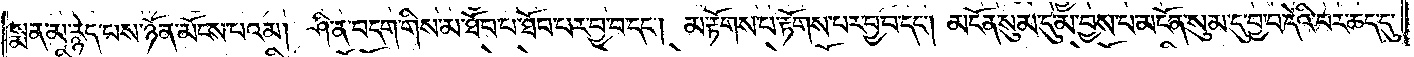སྨན་མ་རྙེད་པས་ཉོན་མོངས་པའམ། ཤི་ན་བདག་གིས་མ་ཐོབ་པ་ཐོབ་པར་བྱ་བ་དང༌། མ་རྟོགས་པ་རྟོགས་པར་བྱ་བ་དང༌། མངོན་སུམ་དུ་མ་བྱས་པ་མངོན་སུམ་དུ་བྱ་བ་དེའི་བར་ཆད་དུ་
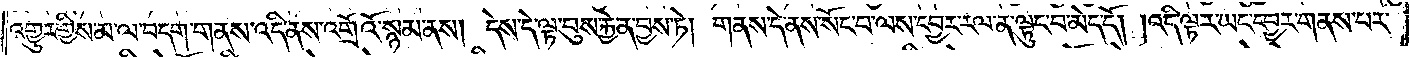འགྱུར་གྱིས་མ་ལ་བདག་གནས་འདི་ནས་འགྲོའོ་སྙམ་ནས། དེས་དེ་ལྟ་བུས་རྐྱེན་བྱས་ཏེ། གནས་དེ་ནས་སོང་བ་ལས་དབྱར་རལ་ན་ལྟུང་བ་མེད་དོ། །འདི་ལྟར་ཡང་དབྱར་གནས་པར་
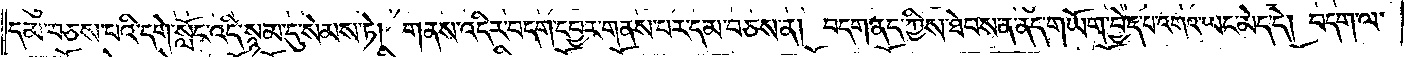དམ་བཅས་པའི་དགེ་སློང་འདི་སྙམ་དུ་སེམས་ཏེ། གནས་འདིར་བདག་དབྱར་གནས་པར་དམ་བཅས་ན། བདག་ནད་ཀྱིས་ཐེབས་ན་ནད་གཡོག་བྱེད་བ་འགའ་ཡང་མེད་དེ། བདག་ལ་
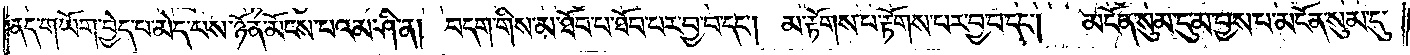ནད་གཡོག་བྱེད་པ་མེད་པས་ཉོན་མོངས་པའམ་ཤི་ན། བདག་གིས་མ་ཐོབ་པ་ཐོབ་པར་བྱ་བ་དང༌། མ་རྟོགས་པ་རྟོགས་པར་བྱ་བ་དང༌།   མངོན་སུམ་དུ་མ་བྱས་པ་མངོན་སུམ་དུ་
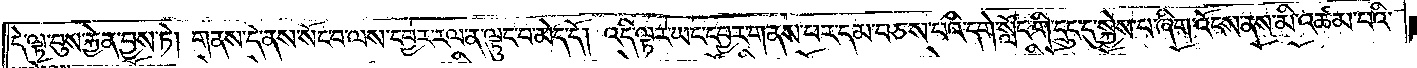དེ་ལྟ་བུས་རྐྱེན་བྱས་ཏེ། གནས་དེ་ནས་སོང་བ་ལས་དབྱར་རལ་ན་ལྟུང་བ་མེད་དོ། འདི་ལྟར་ཡང་དབྱར་གནས་པར་དམ་བཅས་པའི་དགེ་སློང་གི་དྲུང་དུ་སྐྱེས་པ་ཞིག་འོངས་ནས་མི་འཚམ་པའི་
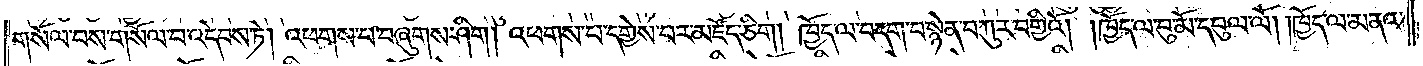གསོལ་བས་གསོལ་བ་འདེབས་ཏེ། འཕགས་པ་བཞུགས་ཤིག། འཕགས་པ་དགྱེས་པར་མཛོད་ཅིག། ཁྱོད་ལ་བདག་བསྙེན་བཀུར་བགྱིའོ། །ཁྱོད་ལ་བུ་མོ་དབུལ་ལོ། །ཁྱོད་ལ་མནའ་
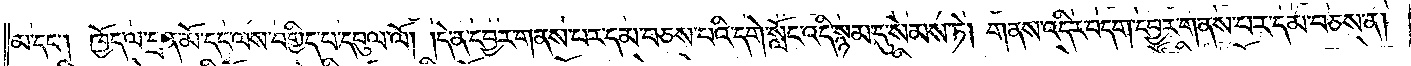མ་དང༌། ཁྱོད་ལ་བྲན་མོ་དང་ལས་བགྱིད་པ་དབུལ་ལོ། །དེ་ན་དབྱར་གནས་པར་དམ་བཅས་པའི་དགེ་སློང་འདི་སྙམ་དུ་སེམས་ཏེ། གནས་འདིར་བདག་དབྱར་གནས་པར་དམ་བཅས་ན།
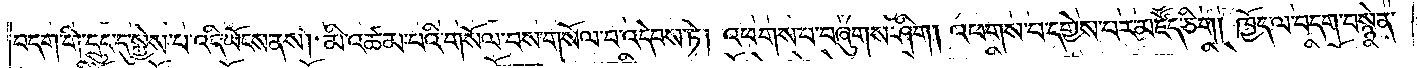བདག་གི་དྲུང་དུ་སྐྱེས་པ་འདི་ཡོངས་ནས། མི་འཚམ་པའི་གསོལ་བས་གསོལ་བ་འདེབས་ཏེ། འཕགས་པ་བཞུགས་ཤིག། འཕགས་པ་དགྱེས་པར་མཛོད་ཅིག། ཁྱོད་ལ་བདག་བསྙེན་
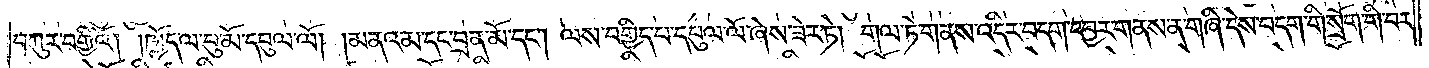བཀུར་བགྱིའོ། །ཁྱོད་ལ་བུ་མོ་དབུལ་ལོ། །མནའ་མ་དང་བྲན་མོ་དང༌། ལས་བགྱིད་པ་དབུལ་ལོ་ཞེས་ཟེར་ཏེ། གལ་ཏེ་གནས་འདིར་བདག་དབྱར་གནས་ན་གཞི་དེས་བདག་གི་སྲོག་གི་བར་
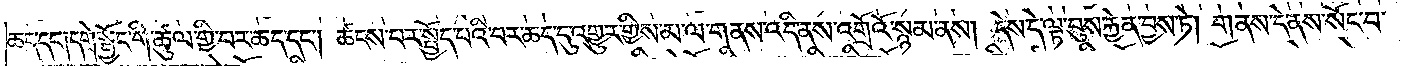ཆད་དང༌། དགེ་སྦྱོང་གི་ཚུལ་གྱི་བར་ཆད་དང༌། ཚངས་པར་སྤྱོད་པའི་བར་ཆད་དུ་འགྱུར་གྱིས་མ་ལ་གནས་འདི་ནས་འགྲོའོ་སྙམ་ནས། དེས་དེ་ལྟ་བུས་རྐྱེན་བྱས་ཏེ། གནས་དེ་ནས་སོང་བ་
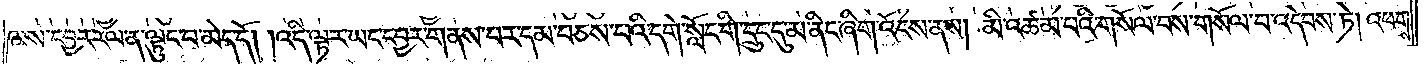ལས་དབྱར་རལ་ན་ལྟུང་བ་མེད་དོ། །འདི་ལྟར་ཡང་དབྱར་གནས་པར་དམ་བཅས་པའི་དགེ་སློང་གི་དྲུང་དུ་མ་ནིང་ཞིག་འོངས་ནས། མི་འཚམ་བའི་གསོལ་བས་གསོལ་བ་འདེབས་ཏེ། འཕགས་
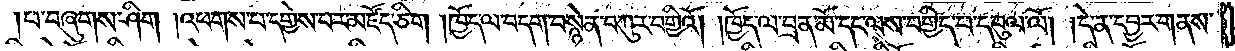པ་བཞུགས་ཤིག །འཕགས་པ་དགྱེས་པར་མཛོད་ཅིག །ཁྱོད་ལ་བདག་བསྙེན་བཀུར་བགྱིའོ། །ཁྱོད་ལ་བྲན་མོ་དང་ལས་བགྱིད་པ་དབུལ་ལོ། །དེ་ན་དབྱར་གནས་
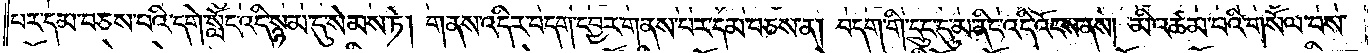པར་དམ་བཅས་པའི་དགེ་སློང་འདི་སྙམ་དུ་སེམས་ཏེ། གནས་འདིར་བདག་དབྱར་གནས་པར་དམ་བཅས་ན། བདག་གི་དྲུང་དུ་མ་ནིང་འདི་འོངས་ནས། མི་འཚམ་པའི་གསོལ་པས་
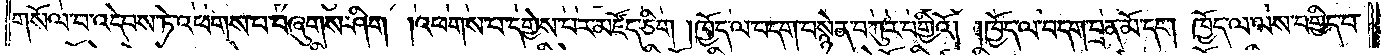གསོལ་བ་འདེབས་ཏེ་འཕགས་པ་བཞུགས་ཤིག །འཕགས་པ་དགྱེས་པར་མཛོད་ཅིག །ཁྱོད་ལ་བདག་བསྙེན་བཀུར་བགྱིའོ། །ཁྱོད་ལ་བདག་བྲན་མོ་དང༌། ཁྱོད་ལ་ལས་བགྱིད་པ་
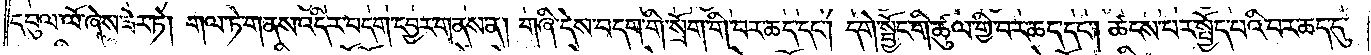དབུལ་ལོ་ཞེས་ཟེར་ཏེ། གལ་ཏེ་གནས་འདིར་བདག་དབྱར་གནས་ན། གཞི་དེས་བདག་གི་སྲོག་གི་བར་ཆད་དང༌། དགེ་སྦྱོང་གི་ཚུལ་གྱི་བར་ཆད་དང༌། ཚངས་པར་སྤྱོད་པའི་བར་ཆད་དུ་
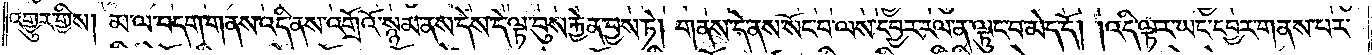འགྱུར་གྱིས། མ་ལ་བདག་གནས་འདི་ནས་འགྲོའོ་སྙམ་ནས་དེས་དེ་ལྟ་བུས་རྐྱེན་བྱས་ཏེ། གནས་དེ་ནས་སོང་བ་ལས་དབྱར་རལ་ན་ལྟུང་བ་མེད་དོ། །འདི་ལྟར་ཡང་དབྱར་གནས་པར་
